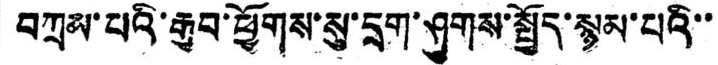བཀྲམ་པའི་རྒྱབ་ཕྱོགས་སུ་དྲག་ཤུགས་སྤྱོད་སྙམ་པའི་་
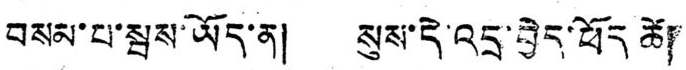བསམ་པ་སྦས་ཡོད་ན། སུས་དེ་འདྲ་བྱེད་ཕོད ཚེ།
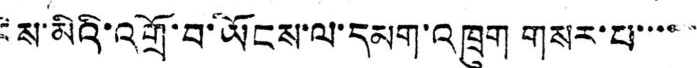ངེས་མིའི་འགྲོ་བ་ཡོངས་ལ་དམག་འཁྲུག གསར་པ་་་་
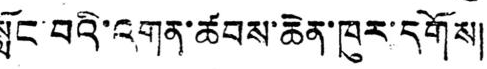སློང་བའི་འགན་ཚབས་ཆེན་ཁུར་དགོས།
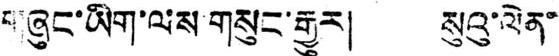གཞུང་ཡིག་ལས་གསུང་རྒྱུར། སུའུ་ལེན་
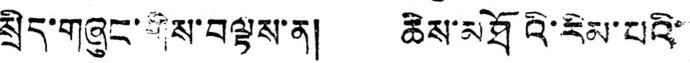སྲིད་གཞུང་གིས་བལྟས་ན། ཆེས་མཐོའི་རིམ་པའི་
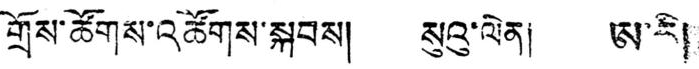གྲོས་ཚོགས་འཚོགས་སྐབས། སུའུ་ལེན། ཨ་རི།
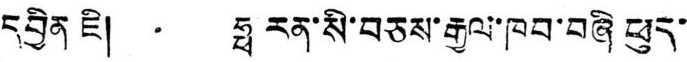དབྱིན ཇི། ཧྥ རན་སི་བཅས་རྒྱལ་ཁབ་བཞི ཕུད་
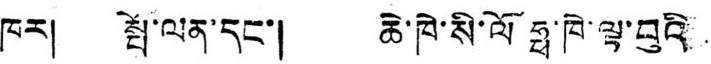ཁར། སྤོ་ལན་དང་། ཆེ་ཁེ་སི་ལོ ཧྥ་ཁེ་ལྟ་བུའི
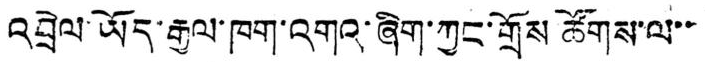འབྲེལ་ཡོད་རྒྱལ་ཁག་འགའ་ཞིག་ཀྱང་གྲོས ཚོགས་ལ་་
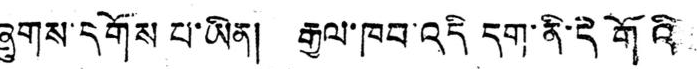ཞུགས་དགོས པ་ཡིན། རྒྱལ་ཁབ་འདི དག་ནི་དེ གོའི
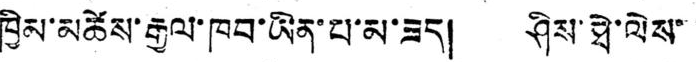ཁྱིམ་མཚེས་རྒྱལ་ཁབ་ཡིན་པ་མ་ཟད། ཤིས་ཐེ་ལེས་
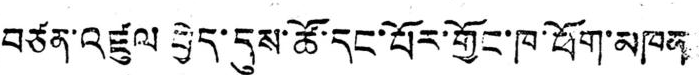བཙན་འཛུལ བྱེད་དུས་ཚོ་དང་པོར་གྱོང་ཁ་ཕོག་མཁན
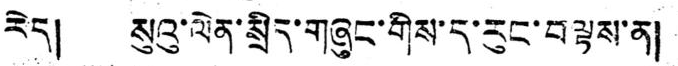རེད། སུའུ་ལེན་སྲིད་གཞུང་གིས་ད་རུང་བལྟས་ན།
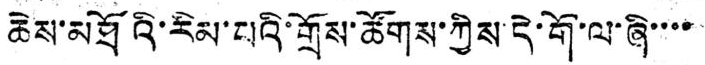ཆེས་མཐོའི་རིམ་པའི་གྲོས་ཚོགས་ཀྱིས་དེ་གོ་ལ་ཞི་་་་
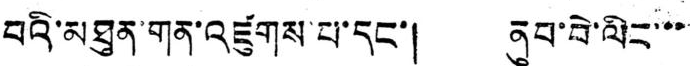བའི་མཐུན་གན་འཛུགས་པ་དང་། ནུབ་བེ་ལིང་་་
